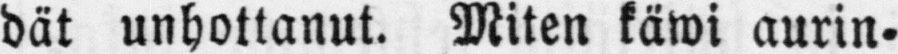dät unhottanut. Miten käwi aurin-
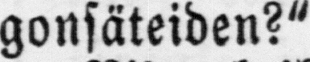gonsäteiden?"
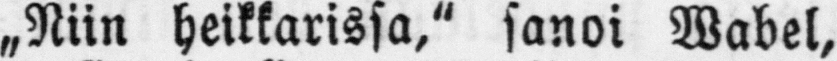„Niin heikkarissa," sanoi Wabel,
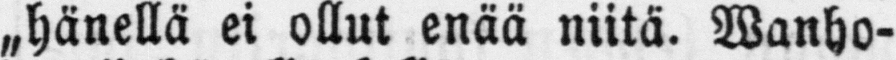„hänellä ei ollut enää niitä. Wanho-
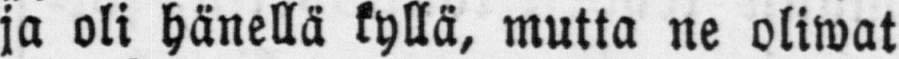ja oli hänellä kyllä, mutta ne oliwat
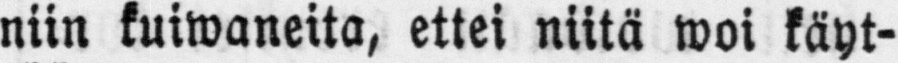niin kuiwaneita, ettei niitä woi käyt-
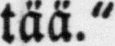tää."
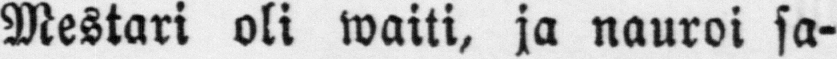Mestari oli waiti, ja nauroi sa-
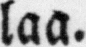laa.
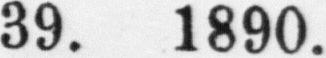No. 39. 1890.
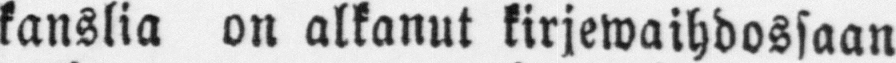kanslia on alkanut kirjewaihdossaan
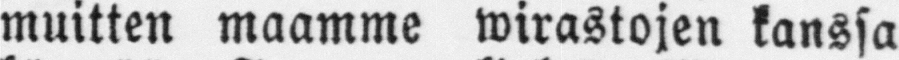muitten maamme wirastojen kanssa
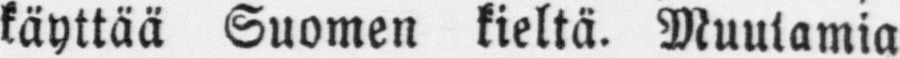käyttää Suomen kieltä. Muutamia
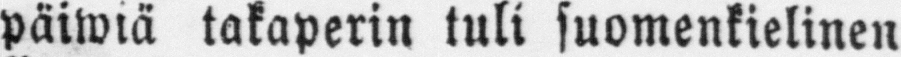päiwiä takaperin tuli suomenkielinen
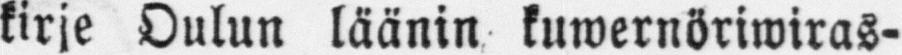kirje Oulun läänin kuwernöriwiras-
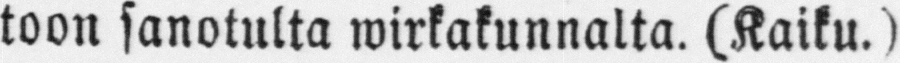toon sanotulta wirkakunnalta. (Kaiku.)
